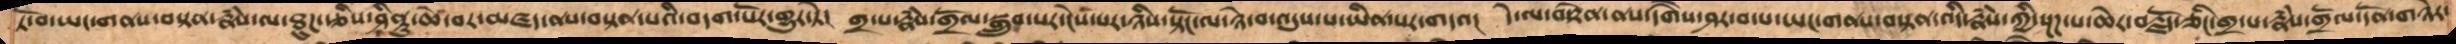ཏོ་བ་ཡང་གནས་བསྟན་རྣཾས་ལ་ཐུཌ་རྩིས་ཤིནྟུ་ཆེ་བར་མཛད་ནས་བསྟན་པའི་བདག་པོར་གྱུར་ཏེ།  གྲ་པ་རྣཾས་གྲོལ་སྒྲུབ་པར་ངེས་པ་ཉིས་སྟོང་ལ་ཉེ་བ་འདུས་པ་ཡིན་པར་གདའ།  དེ་ལ་བརྟེན་ནས་དགཻས་ཤར་བ་པ་ཡང་གནས་བསྟན་འདི་རྣཾས་ཀྱི་སྔཌ་པ་ཆེར་བརྗོད་ཅིང་གྲ་པ་རྣཾས་གྲོལ་དོན་གཉེར་
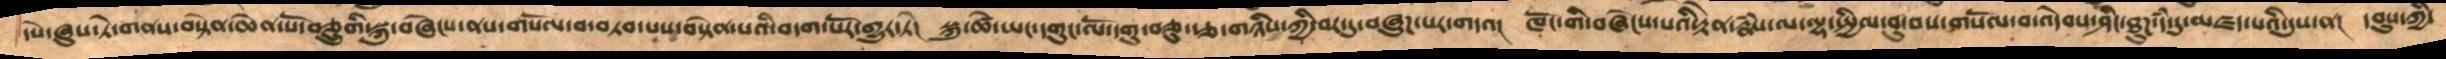དཔེ་ཞུས་ཏེ་ནས་བསྟན་ཆེན་པོ་བཅྲུགི་སྐུ་བཞེངས་ནས་གསོལ་བ་བཏབ་པས་བསྟེན་པའི་བདག་པོར་གྱུར་ཏེ།  སྐུ་ཚེ་ཡང་དགུང་ལོ་དགུ་བཅུ་རྩ་གཉིས་ཀྱི་བར་དུ་བཞུཌ་པར་གདའ།  ཁོང་གི་བཞེངས་པའི་རྟེན་རྣཾས་ལ་ལྷ་སྤྱིལ་བུ་བས་གསོལ་བ་འདེབས་ཤིང་ཐུཌ་དཾ་དུ་མཛད་པའི་དུས་ན།  དབུས་ཀྱི་
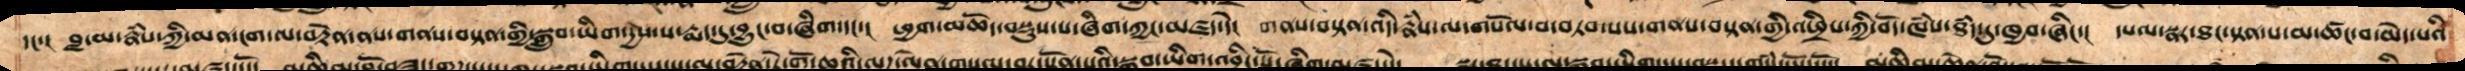དང་། བླ་མ་རྣཾས་ཀྱི་མན་ངག་ལ་བརྟེན་ནས་གནས་བསྟན་གྱི་སྒྲུབ་ཡིག་དྱས་པ་རྨད་དུ་བྱུང་བ་ཞིག་དང་། ཕྱག་མཆོད་བསྡུས་པ་ཞིག་ཀྱང་མཛད་དེ། གནས་བསྟན་འདི་རྣཾས་ལ་གསོལ་བ་བཏབ་པས་གནས་བསྟན་གྱི་འཕྲིས་ཀྱི་བོད་ཁཾས་ཐཾད་དུ་ཁྱབ་ཞིང་། དཔལ་སྣར་ཐང་སྟན་པ་མ་ཚང་བ་མེད་པའི་
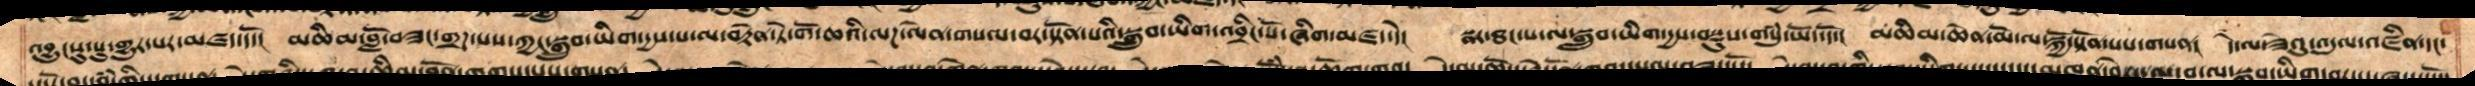འབྱུངསུ་སུ་གྱུར་པར་མཛད་དོ། མཆིམ་བློ་བཟང་གྲཌ་པས་ཀྱང་སྒྲུབ་ཡིག་དྱས་པ་ལ་བརྟེན་ཏེ་གོ་ཆའིལཌ་ལེན་གསལ་བར་སྟོན་པའི་སྒྲུབ་ཡིག་འབྲིང་པོ་ཞིག་མཛད་དེ། སྣར་ཐང་པ་ལ་སྒྲུབ་ཡིག་དྱས་བསྡུས་གསུཾ་ཡོད་དོ། མཆིམ་ཆེན་མོ་ལ་སྐྱོ་སྟོན་པས་གསན། དེ་ལ་ཟེའུ་འདུལ་འཛིན་དང་
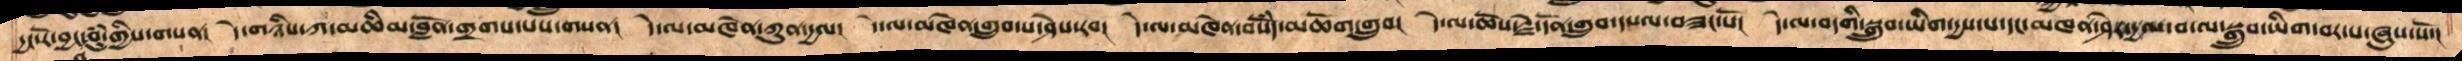དྱང་རོ་བྱང་བུཾ་གྱིས་གསན། དེ་གཉིས་མཆིམ་བློན་གྲགས་པས་གསན། དེ་ལ་མཁེན་ཀུན་དྱལ། དེ་ལ་མཁེན་གྲུབ་པ་ཤེས་རབ། དེ་ལ་མཁེན་བསོཾད་མཆོག་གྲུབ། དེ་ལ་ཆོས་རྗེ་དོན་གྲུབ་དཔལ་བཟང་པོ་།  དེ་ལ་བདགི་སྒྲུབ་ཡིག་དྱས་པ་དང་མཁན་ཤེར་དྱལ་བ་ལ་སྒྲུབ་ཡིག་བར་པ་ཞུས་སོ་།
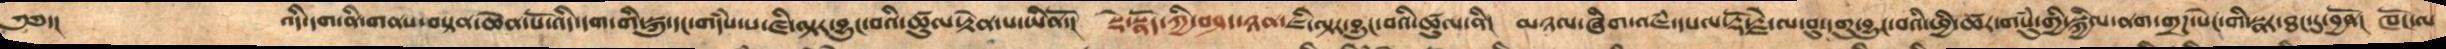༄༅་།     འདི་དག་ནི་གནས་བསྟན་ཆེན་པོ་འདི་དག་གི་སྐུ་དང་གདཾས་པ་ཇི་ལྟར་བྱུང་བའི་ཚུལ་རྟེན་པ་ཡིནོ།  སྡེ་སྣོད་ཀྱི་བཤད་ཉན་ཇི་ལྟར་བྱུང་བའི་ཚུལ་ནི།  མཉལ་ཞིག་འཇཾ་དཔལ་རྡོ་རྗེ་ལ་བུ་དགུ་བྱུང་བའི་ཕྱི་ཚར་གསུཾ་གྱི་སྐྱིལ་ནག་གྲཌ་སེང་གི་སྣར་ཐང་དུ་བྱནོ།  ཁོང་ལ་
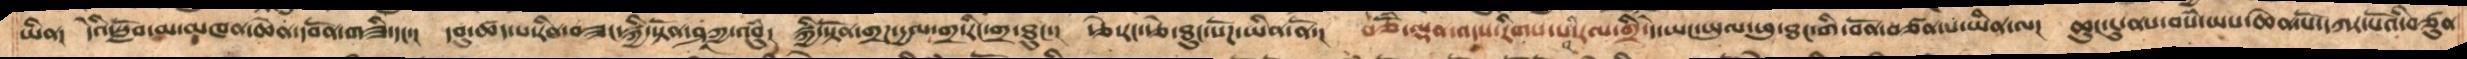ཡིན། དེའི་སློབ་མ་མཁན་ཆེན་དབོན་གཟི་དང་། དབུ་ཚད་པ་རིན་བཟང་སྐྱི་སྟོན་ཤཱཀ་འབུཾ། སྐྱི་སྟོན་གྲཌ་དྱལ་གྲ་རིང་གྲ་ཐུང་། རྩེ་རང་རྩེ་ཐུང་སོཌ་ཡིན་ནོ། བཅོཾ་ལྡན་འདས་རིགས་པའི་རལ་གྲི་དེ་ཡང་ཡུལ་ཕུ་ཐང་གི་བོན་བཙན་པ་ཡིན་ལ། ཆུང་ངུ་ནས་བསཾ་ཡས་ཆེན་པོ་དཀར་པོའི་བཙུན་
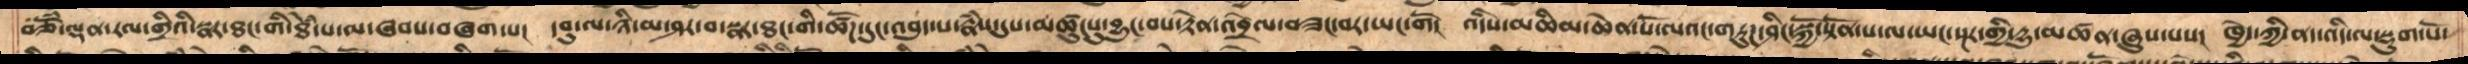བཅོཾ་ལྡན་རལ་གྲིའི་སྣར་ཐང་གི་ཐེཾ་པ་ལ་ཞབས་བཞག་པ།  དབུ་ལ་ཉི་མ་ཤར་བ་སྣར་ཐང་ཚོཌ་དུང་འབུད་པ་རྣཾས་དུས་མཚུངསུ་བྱུང་བས་རྟེན་འབྲེལ་བཟང་བར་ཡང་གོ།  འདིས་མཆིམ་ཆེན་པོ་ལའང་གཏུཌ་ཤིང་སྐྱོ་སྟོན་པ་ལ་སྔར་གྱི་དྱུ་མཚན་ཞུས་པས།  ཁྱེད་ཀྱི་ནད་འདི་ལ་སྡུག་པོ་
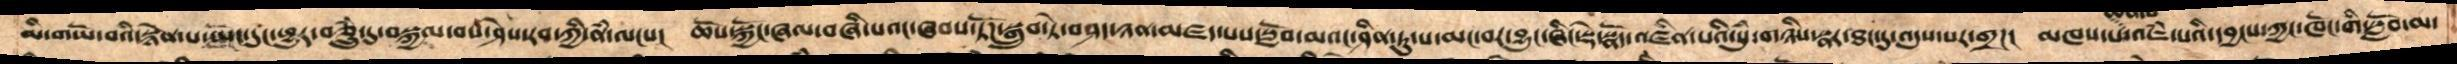མི་གཡོ་བའི་སྙེན་པ་ཡོང་དུང་ཕྱུར་བཅྲུཾ་དུ་བསྐྱལ་བས་ཤེས་རབ་ཀྱི་ནཾ་ལངས།  ཆོས་སྐྱོང་ཞལ་བཞི་པའང་ཞབས་ཏོཌ་སྒྲུབ་ཏེ་བཤད་ཉན་མཛད་པས་སློབ་མའང་ཤིན་ཏུ་ས་མང་བར་བྱུང་ཞིང་སྡེ་སྣོད་འཛིན་པའི་སུཾ་གཉིས་སྣར་ཐང་དུ་འདུས་པར་གྲཌ།  མཁས་པ་འཇཾ་པའི་དབྱངས་ཀྱང་ཁོང་གི་སློབ་མ་
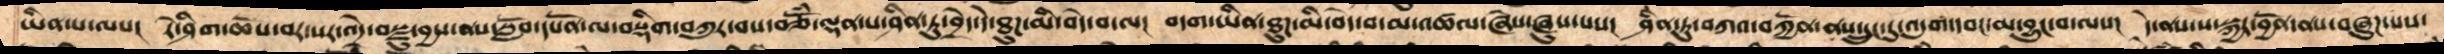ཡིན་པ་ལས། རེ་ཤིག་ཆོས་བར་སར་འདྲེ་བསྫུ་བྱས་ནས་སློབ་དཔོན་ལ་བསྡིག་བཀུར་བས་བཅོཾ་ལྡན་པ་ཤིན་ཏུ་བྲེད་དེ་ཐུད་མི་བདེ་བ་ལ།  བདག་ཡིན་ཐུཌ་མི་བདེ་བ་མ་འཚལ་ཞེས་ཞུས་པས།  ཤིན་ཏུ་བཀའ་བཀྱོན་ནས་དྲུང་དུ་འདུག་དབང་མ་བྱུང་བ་ལས།  དེ་ནས་ས་སྐྱར་བྱོན་ན་བཞུཌ་པས་
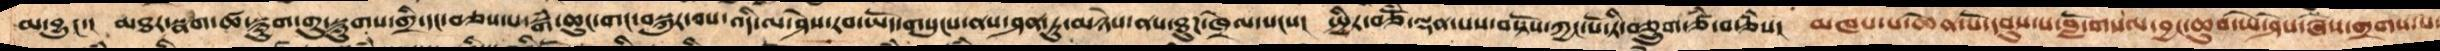མ་བྱུང་།  མཐར་སྣག་ཚ་སྙུག་གུ་སྙུགས་གྲི་དང་བཅས་པ་སྒཾ་ཆུང་གང་བསྐུར་བས་འདི་ལ་ཤེས་རབ་ཡོད་གསུངས་ནས་ཤན་ཏུ་མཉེས་ནས་ཐུཌ་ཁྲེལ་སངས།  སྤྱིར་བཅོཾ་ལྡན་པས་བསྟོས་ཀྱང་པོ་ཏི་བཅྲུག་ཙཾ་བརྩཾས།  མཁས་པ་ཆེན་པོ་དབུས་པ་བློ་གསལ་བྱང་ཆུབ་ཡེ་ཤེས་ཞེས་གྲགས་པ་
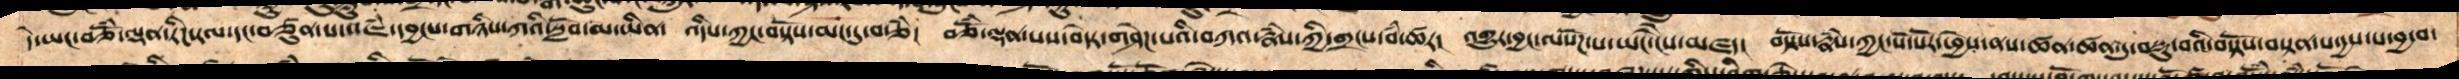དེ་ཡང་བཅོཾ་ལྡན་རིཌ་རལ་དང་བཙུན་པ་འཇཾ་དབྱངས་གཉིས་ཀའི་སློབ་མ་ཡིན།  འདིས་ཀྱང་བསྟོས་མང་དུ་བརྩཾ།  བཅོཾ་ལྡན་པས་བདེར་གཤེཌ་པའི་བཀའ་རྣཾས་ཀྱི་གྲངས་བཾ་ཚར།  འགྱུར་བྱང་ལསོཌས་ཡང་ངཻས་མཛད།  བསྟོས་རྣཾས་ཀྱང་སོ་སོར་ཕྱེས་ནས་ཚན་ཚན་དུ་བསྡུ་བའི་བསྟོས་བསྟན་པ་དྱས་པ་བྱ་བ་
